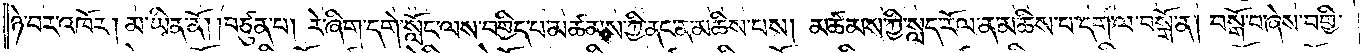ཉེ་བར་འཁོར། མ་ཡིན་ནོ། །བཙུན་པ། རེ་ཞིག་དགེ་སློང་ལས་བགྱིད་པ་མཚམས་ཀྱི་ནང་ན་མཆིས་པས། མཚམས་ཀྱི་སླད་རོལ་ན་མཆིས་པ་དག་ལ་བསྒོ་ན། བསྒོ་བ་ཞེས་བགྱི་
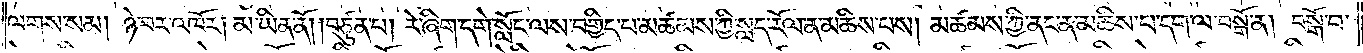ལགས་སམ། ཉེ་བར་འཁོར། མ་ཡིན་ནོ། །བཙུན་པ། རེ་ཞིག་དགེ་སློང་ལས་བགྱིད་པ་མཚམས་ཀྱི་སླད་རོལ་ན་མཆིས་པས། མཚམས་ཀྱི་ནང་ན་མཆིས་པ་དག་ལ་བསྒོ་ན། བསྒོ་བ་
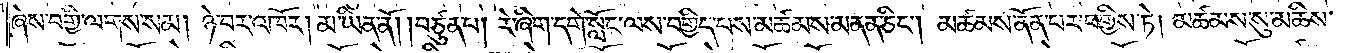ཞེས་བགྱི་ལགས་སམ། ཉེ་བར་འཁོར། མ་ཡིན་ནོ། །བཙུན་པ། རེ་ཞིག་དགེ་སློང་ལས་བགྱིད་པས་མཚམས་མནན་ཅིང༌། མཚམས་ནོན་པར་བགྱིས་ཏེ། མཚམས་སུ་མཆིས་
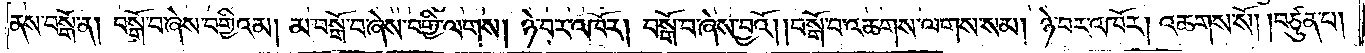ནས་བསྒོ་ན། བསྒོ་བ་ཞེས་བགྱིའམ། མ་བསྒོ་བ་ཞེས་བགྱི་ལགས། ཉེ་བར་འཁོར། བསྒོ་བ་ཞེས་བྱའོ། །བསྒོ་བ་འཆགས་ལགས་སམ། ཉེ་བར་འཁོར། འཆགས་སོ། །བཙུན་པ།
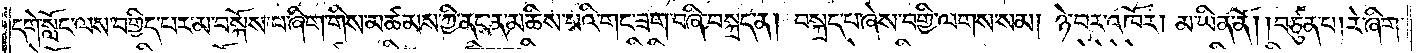དགེ་སློང་ལས་བགྱིད་པར་མ་བསྐོས་པ་ཞིག་གིས་མཚམས་ཀྱི་ནང་ན་མཆིས་པའི་གང་ཟག་བཞི་བསྐྲད་ན། བསྐྲད་པ་ཞེས་བགྱི་ལགས་སམ། ཉེ་བར་འཁོར། མ་ཡིན་ནོ། །བཙུན་པ། རེ་ཞིག་
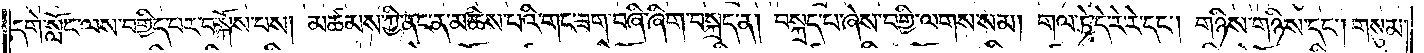དགེ་སློང་ལས་བགྱིད་པར་བསྐོས་པས། མཚམས་ཀྱི་ནང་ན་མཆིས་པའི་གང་ཟག་བཞི་ཞིག་བསྐྲད་ན། བསྐྲད་པ་ཞེས་བགྱི་ལགས་སམ། གལ་ཏེ་དེ་རེ་རེ་དང༌། གཉིས་གཉིས་དང༌། གསུམ་
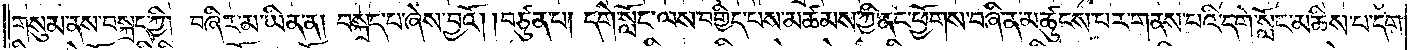གསུམ་ནས་བསྐྲད་ཀྱི། བཞིར་མ་ཡིན་ན། བསྐྲད་པ་ཞེས་བྱའོ། །བཙུན་པ། དགེ་སློང་ལས་བགྱིད་པས་མཚམས་ཀྱི་ནང་ཕྱོགས་བཞི་ན་མཚུངས་པར་གནས་པའི་དགེ་སློང་མཆིས་པ་དག་
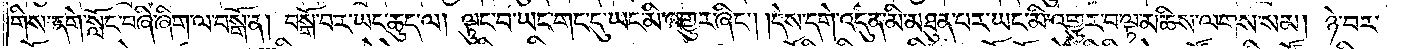གིས་དགེ་སློང་བཞི་ཞིག་ལ་བསྒོ་ན། བསྒོ་བར་ཡང་ཆུད་ལ། ལྟུང་བ་ཡང་དུ་གང་ཡང་མི་འགྱུར་ཞིང༌། །དེས་དགེ་འདུན་མི་མཐུན་པར་ཡང་མི་འགྱུར་བ་ལྟ་མཆིས་ལགས་སམ། ཉེ་བར་
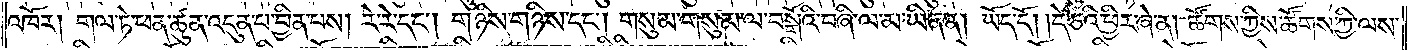འཁོར། གལ་ཏེ་ཕན་ཚུན་འདུན་པ་བྱིན་པས། རེ་རེ་དང༌། གཉིས་གཉིས་དང༌། གསུམ་གསུམ་ལ་བསྒོའི་བཞི་ལ་མ་ཡིན་ན། ཡོད་དོ། །དེ་ཅིའི་ཕྱིར་ཞེ་ན། ཚོགས་ཀྱིས་ཚོགས་ཀྱི་ལས་
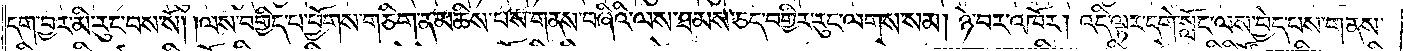དག་བྱར་མི་རུང་བས་སོ། །ལས་བགྱིད་པ་ཕྱོགས་གཅིག་ན་མཆིས་པས་གནས་བཞིའི་ལས་ཐམས་ཅད་བགྱིར་རུང་ལགས་སམ། ཉེ་བར་འཁོར། འདི་ལྟར་དགེ་སློང་ལས་བྱེད་པས་གནས་
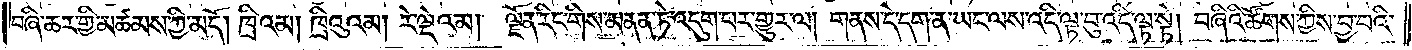བཞི་ཆར་གྱི་མཚམས་ཀྱི་མདོ། ཁྲིའམ། ཁྲིའུའམ། རེ་ལྡེའམ། ལྗོན་རིང་གིས་མནན་ཏེ་འདུག་པར་གྱུར་ལ། གནས་དེ་དག་ན་ཡང་ལས་འདི་ལྟ་བུ་འདི་ལྟ་སྟེ། བཞིའི་ཚོགས་ཀྱིས་བྱ་བའི་
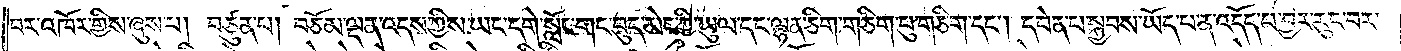བར་འཁོར་གྱིས་ཞུས་པ། བཙུན་པ། བཅོམ་ལྡན་འདས་ཀྱིས་ཡང་དགེ་སློང་གང་བུད་མེད་ཀྱི་ཡུལ་དང་ལྷན་ཅིག་གཅིག་པུ་གཅིག་དང༌། དབེན་པ་སྐྱབས་ཡོད་པ་ན་འདོད་པ་བྱར་རུང་བར་
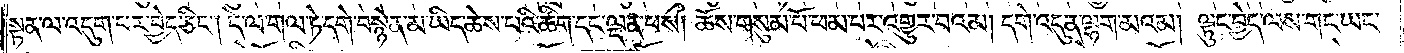སྟན་ལ་འདུག་པར་བྱེད་ཅིང༌། དེ་ལ་གལ་ཏེ་དགེ་བསྙེན་མ་ཡིད་ཆེས་པའི་ཚིག་དང་ལྡན་པས། ཆོས་གསུམ་པོ་ཕམ་པར་འགྱུར་བའམ། དགེ་འདུན་ལྷག་མའམ། ལྟུང་བྱེད་ལས་གང་ཡང་
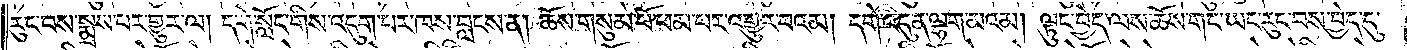རུང་བས་སྨྲས་པར་གྱུར་ལ། དགེ་སློང་གིས་འདུག་པར་ཁས་བླངས་ན། ཆོས་གསུམ་པོ་ཕམ་པར་འགྱུར་བའམ། དགེ་འདུན་ལྷག་མའམ། ལྟུང་བྱེད་ལས་ཆོས་གང་ཡང་རུང་བས་བྱེད་དུ་
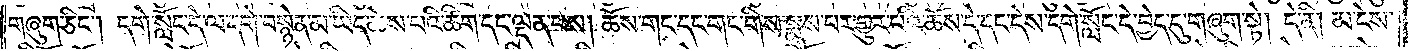གཞུག་ཅིང༌། དགེ་སློང་དེ་ལ་དགེ་བསྙེན་མ་ཡིད་ཆེས་པའི་ཚིག་དང་ལྡན་པས། ཆོས་གང་དང་གང་གིས་སྨྲས་པར་གྱུར་པའི་ཆོས་དེ་དང་དེས་དགེ་སློང་དེ་བྱེད་དུ་གཞུག་སྟེ། དེ་ནི། མ་ངེས་
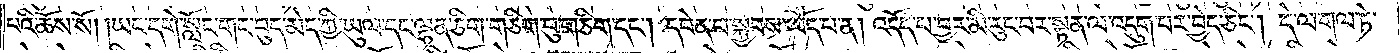པའི་ཆོས་སོ། །ཡང་དགེ་སློང་གང་བུད་མེད་ཀྱི་ཡུལ་དང་ལྷན་ཅིག་གཅིག་པུ་གཅིག་དང༌། དབེན་པ་སྐྱབས་ཡོད་པ་ན། འདོད་པ་བྱར་མི་རུང་བར་སྟན་ལ་འདུག་པར་བྱེད་ཅིང༌། དེ་ལ་གལ་ཏེ་
